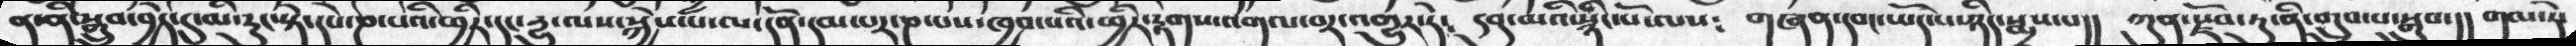ན་ནི་སྒྲུབ་བྱེད་དུ་མི་རུང་སྟེ་དཔེ་ཎ་པའི་ཕྱིར་དང་དྱུ་ལས་སྐྱེས་པ་ལ་དོན་དམ་པར་ཎ་པས་ཁྱབ་པའི་ཕྱིར་རྟགས་འགལ་བར་འགྱུར་ཏེ༴ དབུ་མའི་སྙིང་པོ་ལས༴ གཞན་དབང་ཡོད་པ་ཉིད་སྨྲས་པ།། ཀུན་སྫོབ་ཏུ་ནི་གྲུབ་པ་སྒྲུབ་།། གལ་ཏེ་
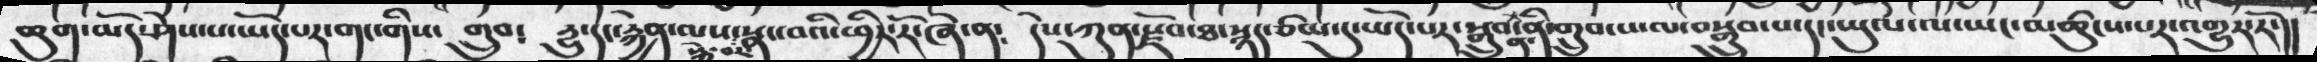ཆུག་མོད་ཤེས་པ་ཡོད་པར་གང་གིས་  གྲུབ༴  དྱུ་དང་རྐྱེན་ལས་སྐྱེ་བར་སྣང་བའི་ཕྱིར་རོ་ཞེ་ན༴    དེས་ཀུན་རྫོབ་ཐ་སྙད་ཙམ་དུ་ཡོད་པར་སྒྲུབ་ན་ནི་གྲུབ་པ་ལ་བསྒྲུབ་པ་དང་ཡུལ་ལས་ཡང་མཚུངས་པར་འགྱུར་རོ་།།
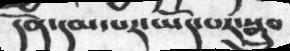དོན་དམ་པར་ཡོད་པར་སྒྲུབ
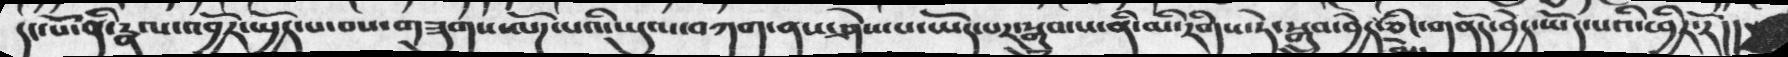དང་པོ་ནི་རྣལ་འབྱོར་སྤྱོད་པ་བས་གཟུགས་ལོཌ་པའི་ཡུལ་བཀག་ནས་ཤེས་པ་ཡོད་པར་སྒྲུབ་པ་ནི་མི་རིགས་ཏེ་སྒྲུབ་བྱེད་མེད་ཅིང་གནོད་བྱེད་ཡོད་པའི་ཕྱིར་རོ།།
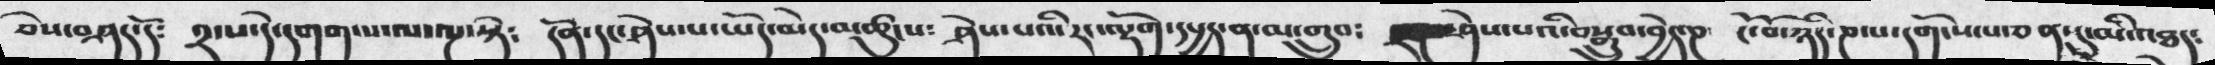ཅེས་བཤད་དོ༴  ༢་པ་དེ་དགག་པ་ལ་ལྔ་སྟེ༴  དོན་དང་ཤེས་པ་ཡོད་མེད་མཚུངས༴ ཤེས་པའི་རང་ལྡོག་དཔྱད་ན་མ་གྲུབ༴     ཤེས་པའི་བསྒྲུབ་བྱེད་ཎ་  ངོ་བོ་ཉིད་ཎ་པ་དགོངས་པ་ཅན་དུ་མི་འཐད༴
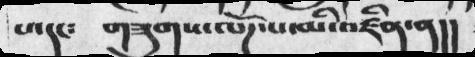པ་དང༴  གཟུགས་ལོཌ་པ་མི་འཛིན་ན།།
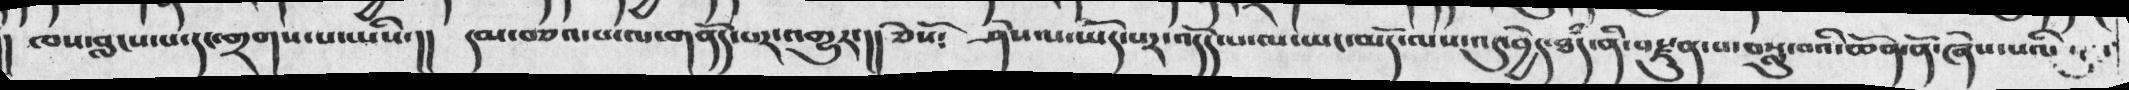། ཁས་བླངས་པ་དང་གྲགས་པ་ཡིས་།།  དམ་བཅའ་པ་ལ་གནོད་པར་འགྱུར་།།  ཅེསོ༴  ཤེས་པ་ཡོད་པར་འདོད་པ་ལ་ཡང་མདོ་ལས་འདུ་བྱེད་ཐཾད་ནི་བརྫུན་པ་བསླུ་བའི་ཆོན་ནོ་ཞེས་པའི་
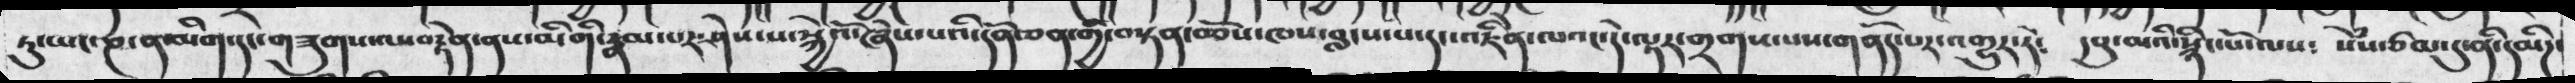ཏུ་ཡང་ཎ་ན་མིག་དང་གཟུགས་ལ་བརྟེན་ནས་མིགི་རྣམ་པར་ཤེས་པ་སྐྱེའོ་ཞེས་པའི་དོན་ཅན་གྱི་བསྟན་བཅོས་ཁས་བླངས་པ་དང་འཇིེན་ལའང་དེ་ལྟར་གྲགས་པས་གནོད་པར་འགྱུར་ཏེ༴ དབུ་མའི་སྙིང་པོ་ལས༴ སེཾས་ཙམ་དུ་ནི་དམིཌ་
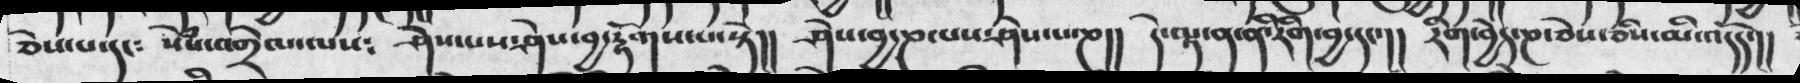ཅེས་པ་དང༴  སེཾས་འགྲེལ་ལས༴  ཤེས་པས་ཤེས་བྱ་རྟོགས་པ་སྟེ།།  ཤེས་བྱ་ཎ་པས་ཤེས་པ་ཎ།།  དེ་ལྟ་ན་ནི་རིག་བྱ་དང་།།  རིག་བྱེད་ཎ་ཅེས་ཅིས་མི་འདོད་།།
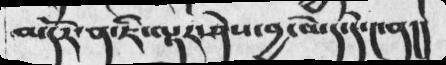མདོར་ན་ཇི་ལྟར་ཤེས་བྱ་མེད་དེ་༤ན།།
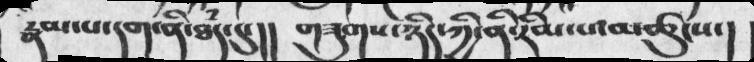རྣམ་པ་དག་ནི་ཐཾད་དུ་།།  གཟུགས་ཉིད་ཀྱི་ནི་རིམ་པ་མཚུངས་།
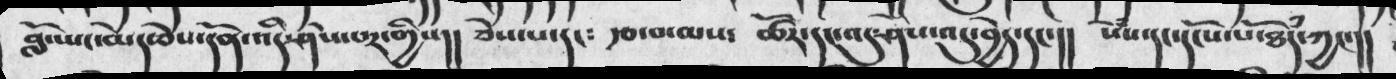བློ་ཡང་མེད་ཅེས་དོན་འདི་ཤེས་པར་གྱིས།།  ཅེས་པ་དང༴  རྩ་བ་ལས༴  ཚོར་དང་འདུ་ཤེས་འདུ་བྱེད་དང་།།  སེཾས་དང་དངོས་པོ་ཐཾད་ཀྱང་།།
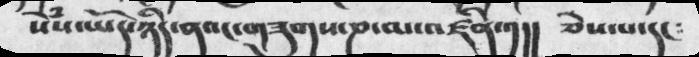སེཾས་ཡོད་ཉིད་ནའང་གཟུགས་ཎ་མ་འཛིན་༡།། ཅེས་པ་དང༴
